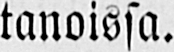tanoissa.
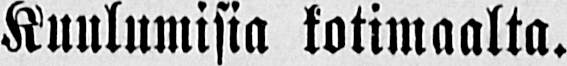Kuulumisia kotimaalta.
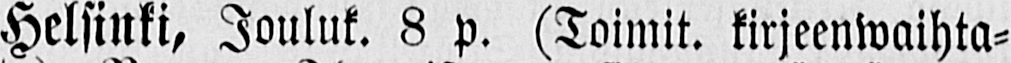Helsinki, Jouluk. 8 p. (Toimit. kirjeenwaihta-
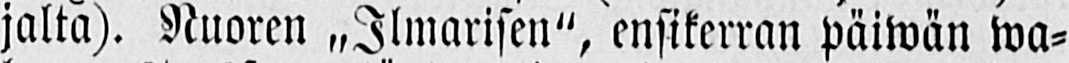jalta). Nuoren ensikerran päiwän wa-
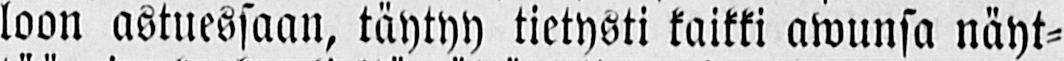loon astuessaan, täytyy tietysti kaikki awunsa näyt-
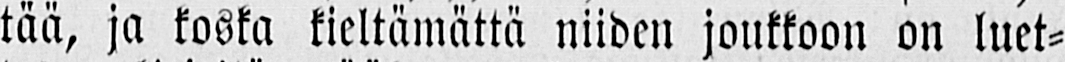tää, ja koska kieltämättä niiden joukkoon on luet-
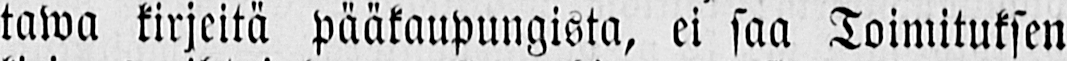tawa kirjeitä pääkaupungista, ei saa Toimituksen
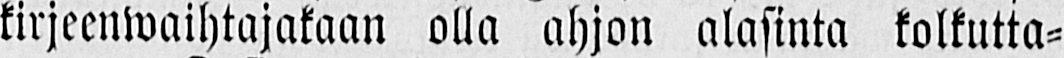kirjeenwaihtajakaan olla ahjon alasinta kolkutta-
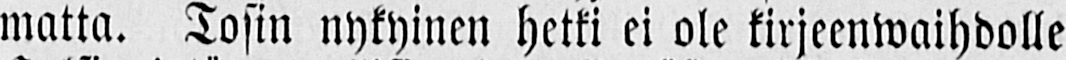matta. Tosin nykyinen hetki ei ole kirjeenwaihdolle
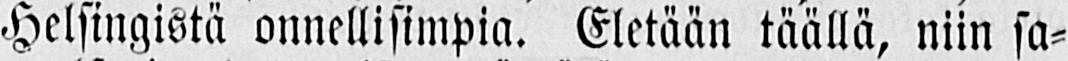Helsingistä onnellisimpia. Eletään täällä, niin sa-
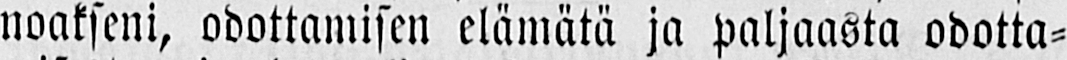noakseni, odottamisen elämätä ja paljaasta odotta-
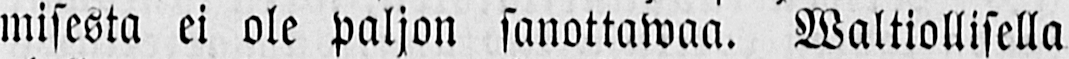misesta ei ole paljon sanottawaa. Waltiollisella
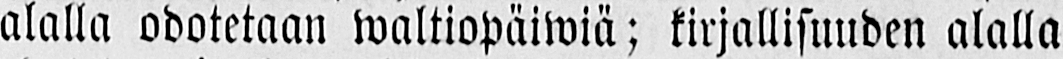alalla odotetaan waltiopäiwiä; kirjallisuuden alalla
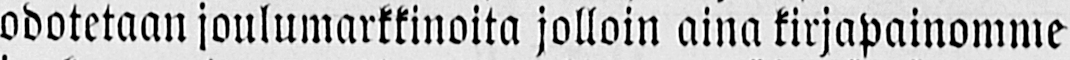odotetaan joulumarkkinoita jolloin aina kirjapainomme
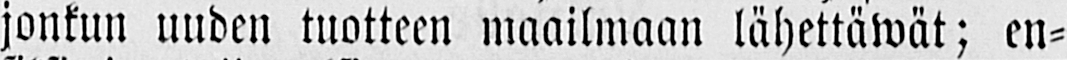jonkun uuden tuotteen maailmaan lähettäwät; en-
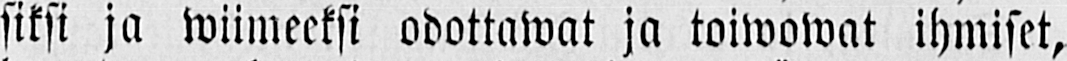siksi ja wiimeeksi odottawat ja toiwowat ihmiset,
